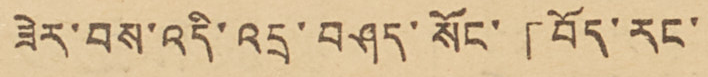ཟེར་བས་འདི་འདྲ་བཤད་སོང་「བོད་རང་
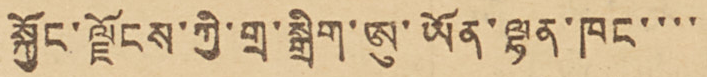སྐྱོང་ལྗོངས་ཀྱི་གྲ་སྒྲིག་ཨུ་ཡོན་ལྷན་ཁང་་་་
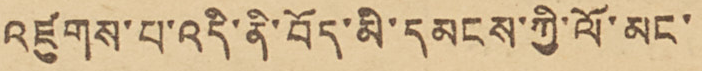འཛུགས་པ་འདི་ནི་བོད་མི་དམངས་ཀྱི་ལོ་མང་
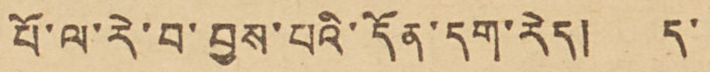པོ་ལ་རེ་བ་བྱས་པའི་དོན་དག་རེད། ད་
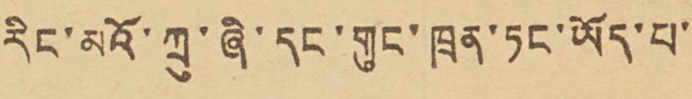རིང་མའོ་ཀྲུ་ཞི་དང་གུང་ཁྲན་ཏང་ཡོད་པ་
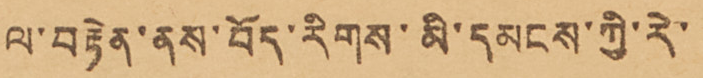ལ་བརྟེན་ནས་བོད་རིགས་མི་དམངས་ཀྱི་རེ་
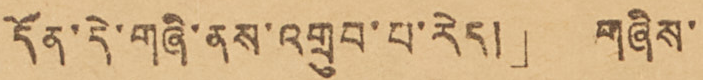དོན་དེ་གཞི་ནས་འགྲུབ་པ་རེད།」 གཞིས་
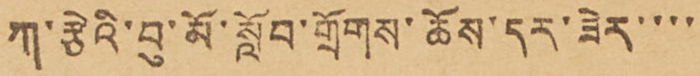ཀ་རྩེའི་བུ་མོ་སློབ་གྲོགས་ཆོས་དར་ཟེར་་་་
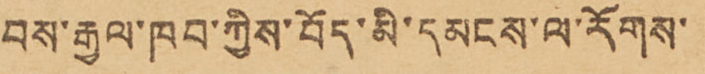བས་རྒྱལ་ཁབ་ཀྱིས་བོད་མི་དམངས་ལ་རོགས་
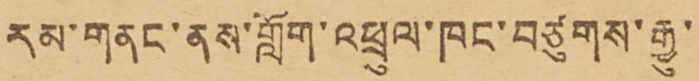རམ་གནང་ནས་གློག་འཕྲུལ་ཁང་བཙུགས་རྒྱུ་
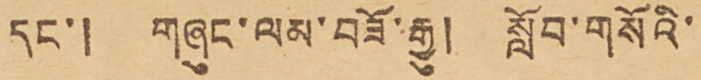དང་། གཞུང་ལམ་བཟོ་རྒྱུ། སློབ་གསོའི་
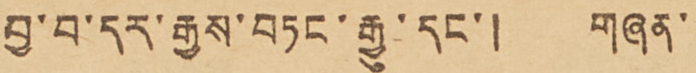བྱ་བ་དར་རྒྱས་བཏང་རྒྱུ་དང་། གཞན་
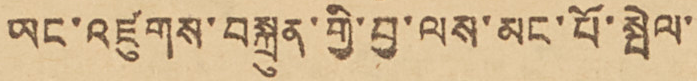ཡང་འཛུགས་བསྐྲུན་གྱི་བྱ་ལས་མང་པོ་སྤེལ་
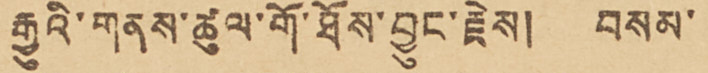རྒྱུའི་གནས་ཚུལ་གོ་ཐོས་བྱུང་རྗེས། བསམ་
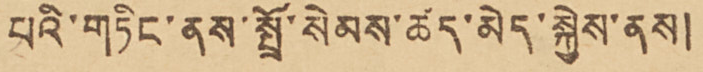པའི་གཏིང་ནས་སྤྲོ་སེམས་ཚད་མེད་སྐྱེས་ནས།
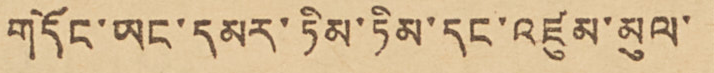གདོང་ཡང་དམར་ཏིམ་ཏིམ་དང་འཛུམ་མུལ་
